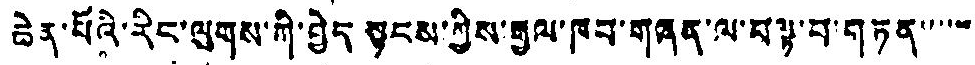ཆེན་པོའི་རིང་ལུགས་ཀི་བྱེད སྟངས་ཀྱིས་རྒྱལ་ཁབ་གཞན་ལ་བལྟ་བ་གཏན་་་་་་
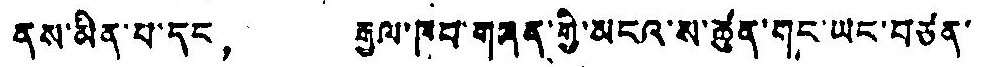ནས་མིན་པ་དང， རྒྱལ་ཁབ་གཞན་གྱི་མངའ་ས་ཚུན་དང་ཡང་བཙན་
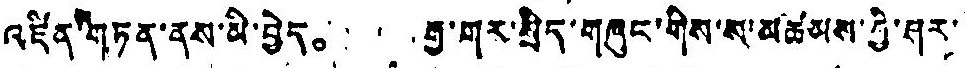འཛིན་གཏན་ནས་མི་བྱེད。 རྒྱ་གར་སྲིད་གཞུང་གིས་ས་མཚམས་ཀྱི་ཤར་
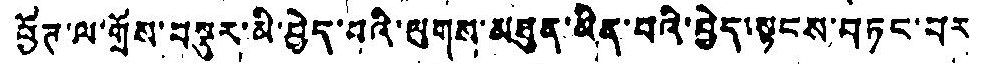ཕྱོཊ་ལ་གྲོས་བསྡུར་མི་བྱེད་པའི་ལུགས་མཐུན་མིན་པའི་བྱེད་སྟངས་བཏང་བར
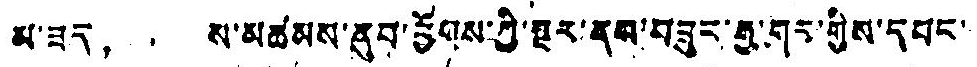མ་ཟད， ས་མཚམས་ནུབ་ཕྱོགས་ཀྱི་སྔར་ནས་བཟུང་རྒྱུ་གར་གྱིས་དབང་
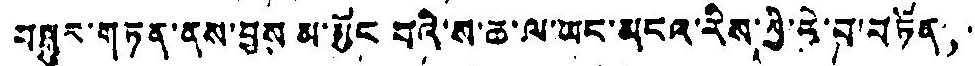བསྐྱར་གཏན་ནས་བྱས མ་མྱོང བའི་ས་ཆ་ལ་ཡང་མངའ་རིས་ཀྱི་ཇེ་བ་བཏོན，
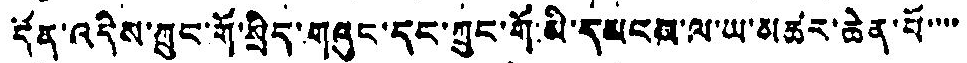དོན་འདིས་ཀྲུང་གོ་སྲིད་གཞུང་དང་ཀྲུང་གོ་མི་དམངས་ལ་ཡ་མཚར་ཆེན་པོ་་་་་
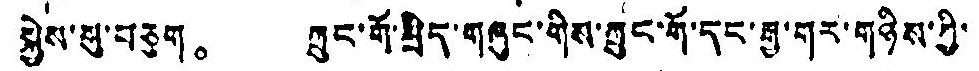སྐྱེས་སུ་བཅུག。 ཀྲུང་གོ་སྲིད་གཞུང་གིས་ཀྲུང་གོ་དང་རྒྱ་གར་གཉིས་ཀྱི་
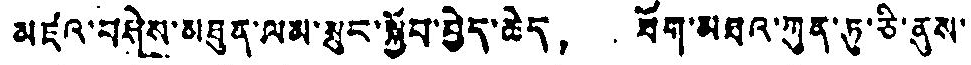མཛའ་བཤེས་མཐུན་ལམ་སྲུང་སྐྱོབ་བྱེད་ཆེད， ཐོག་མཐའ་ཀུན་ཏུ་ཅི་ནུས་
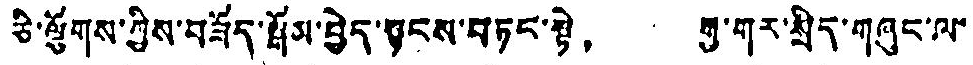ཅི་ལྕོགས་ཀྱིས་བཟོད་སྒོམ་བྱེད་མངས་བཏང་སྟེ， རྒྱ་གར་སྲིད་གཞུང་ལ་
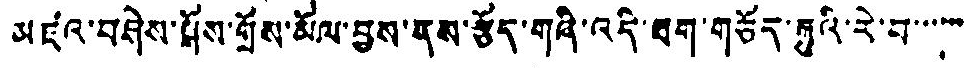མཛའ་བཤེས་སོས་གྲོས་མོལ་བྱས་ནས་རྩོད་གཞི་འདི་ཐག་གཅོད་རྐྱུའི་རེ་བ་་་་་་
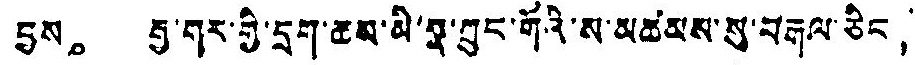བྱས。 རྒྱ་གར་གྱི་དྲག་ཆས་མི་སྩ་ཀྲུང་གོའི་ས་མཚམས་སུ་བརྒལ་ཅིང，
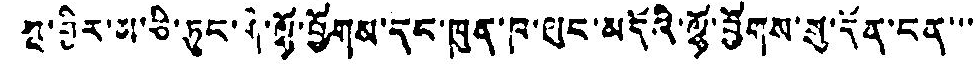ཀྔ་ཕྱིར་ཡ་ཅི་ཏུང་གི་ལྷོ་ཕྱོགས་དང་ཁུན་ཁ་ལུང་མདོའི་ལྷོ་ཕྱོགས་སུ་དོན་ངན་་་
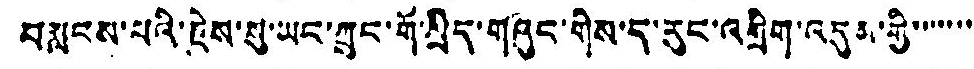བསླངས་པའི་རྗེས་སུ་ཡང་ཀྲུང་གོ་སྲིད་གཞུང་གིས་ད་རུང་འགྲིག་འདུན་གྱི་་་་་་་
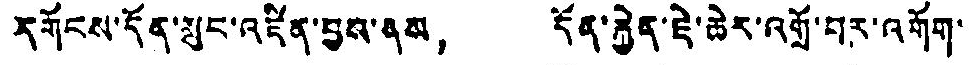དགོངས་དོན་སང་འཛིན་བྱས་ནས， དོན་རྐྱེན་ཇེ་ཆེར་འགྲོ་བར་འགོག་
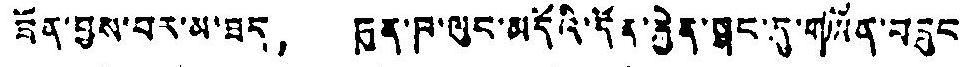དོན་བྱས་པར་མ་ཟད， ཁུན་ཁ་ལུང་མདོའི་དོན་རྐྱེན་ཐང་དུ་གཡོན་བཟུང་
